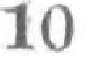10
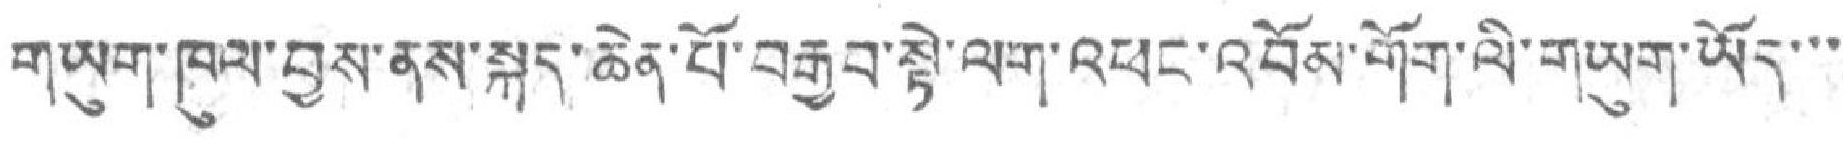གཡུག་ཁུལ་བྱས་ནས་སྐད་ཆེན་པོ་བརྒྱབ་སྟེ་ལག་འཕང་འབོམ་གོག་ལི་གཡུག་ཡོད་་་
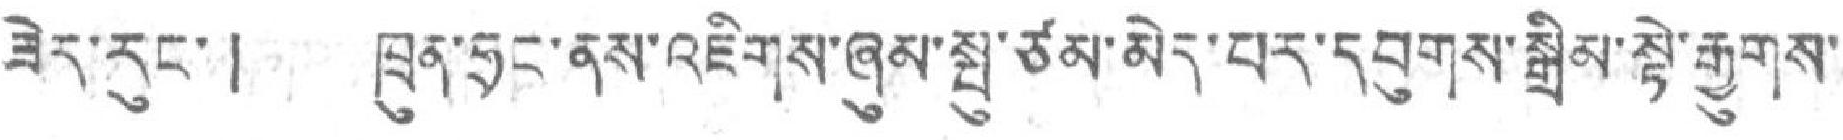ཟེར་རུང་། ཁྲུན་ཧྲང་ནས་འཇིགས་ཞུམ་སྤུ་ཙམ་མེད་པར་དབུགས་སྒྲིམ་སྟེ་རྒྱུགས་
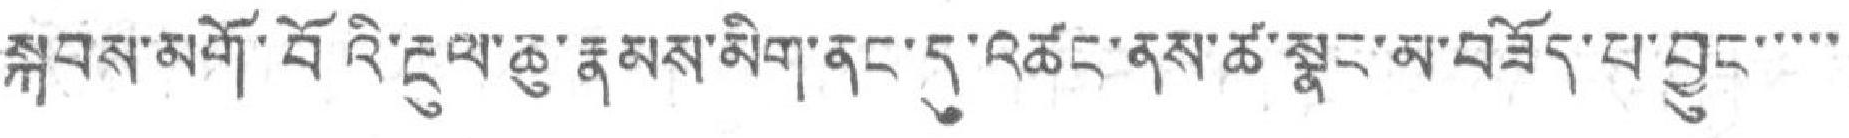སྐབས་མགོ་བོའི་རྔུལ་ཆུ་རྣམས་མིག་ནང་དུ་འཚང་ནས་ཚ་སྣང་མ་བཟོད་པ་བྱུང་་་་་
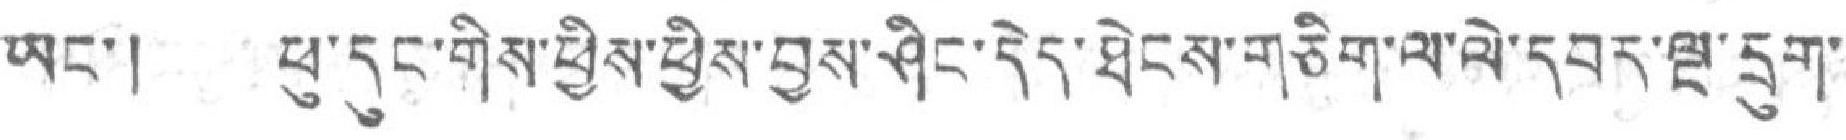ཡང་། ཕུ་དུང་གིས་ཕྱིས་ཕྱིས་བྱས་ཤིང་དེད་ཐེངས་གཅིག་ལ་ལེ་དབར་ལྔ་དྲུག་
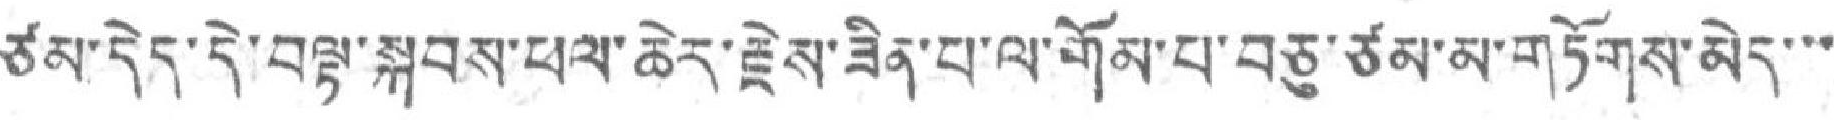ཙམ་དེད་དེ་བལྟ་སྐབས་ཕལ་ཆེར་རྗེས་ཟིན་པ་ལ་གོམ་པ་བཅུ་ཙམ་མ་གཏོགས་མེད་་་
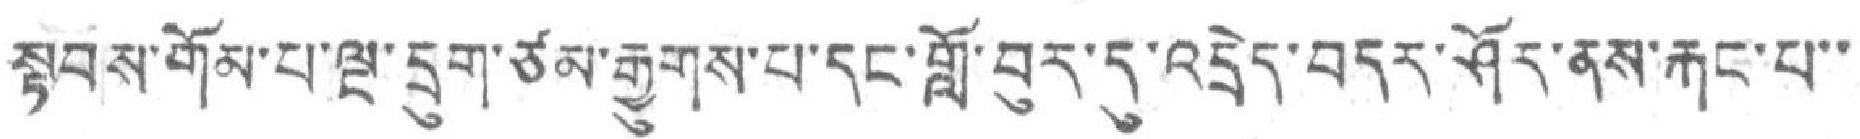སྟབས་གོམ་པ་ལྔ་དྲུག་ཙམ་རྒྱུགས་པ་དང་གློ་བུར་དུ་འདྲེད་བདར་ཤོར་ནས་རྐང་པ་་
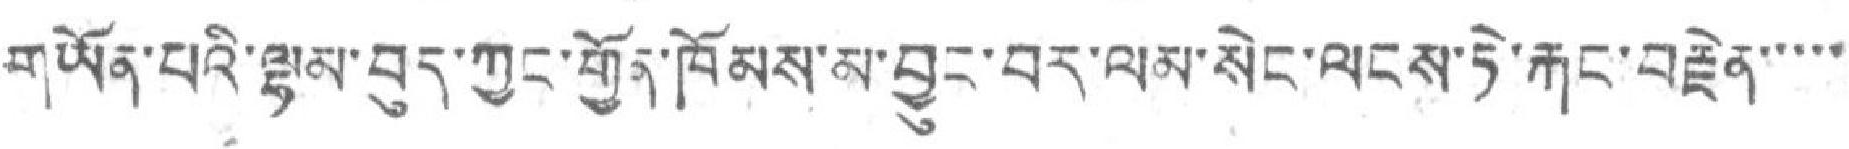གཡོན་པའི་ལྷམ་བུད་ཀྱང་གྱོན་ཁོམས་མ་བྱུང་བར་ལམ་སེང་ལངས་ཏེ་རྐང་བརྗེན་་་་་
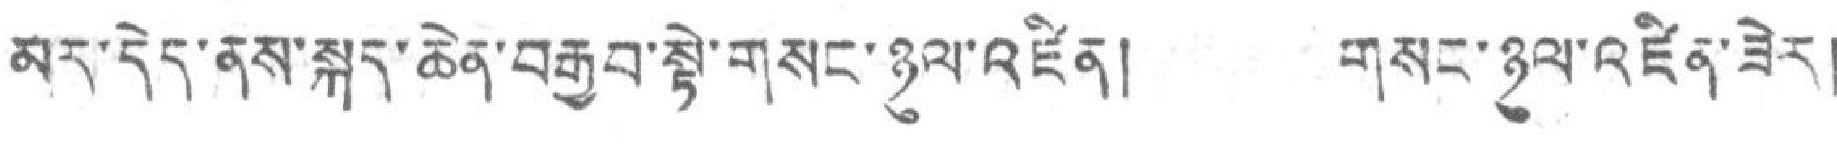མར་དེད་ནས་སྐད་ཆེན་བརྒྱབ་སྟེ་གསང་ཉུལ་འཛིན། གསང་ཉུལ་འཛིན་ཟེར།
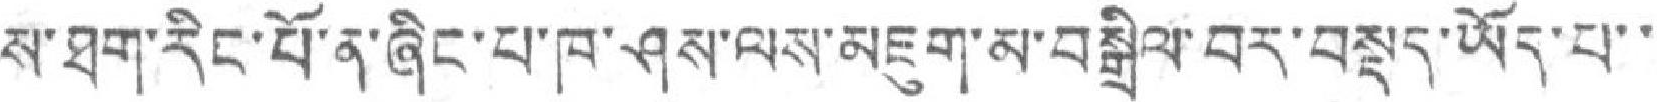ས་ཐག་རིང་པོ་ན་ཞིང་པ་ཁ་ཤས་ལས་མཇུག་མ་བསྒྲིལ་བར་བསྡད་ཡོད་པ་་
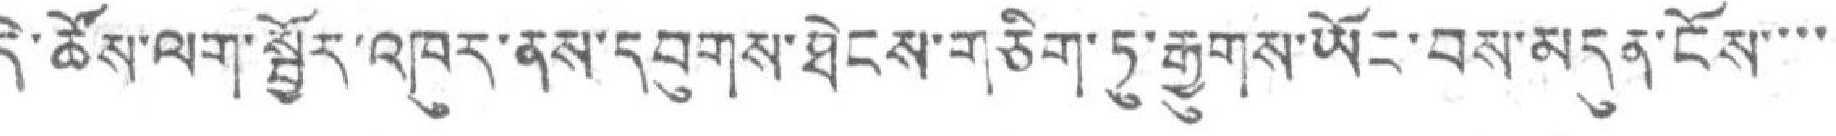དེ་ཚོས་ལག་སྦྱོར་འཁུར་ནས་དབུགས་ཐེངས་གཅིག་ཏུ་རྒྱུགས་ཡོང་བྱས་མདུན་ངོས་་་་
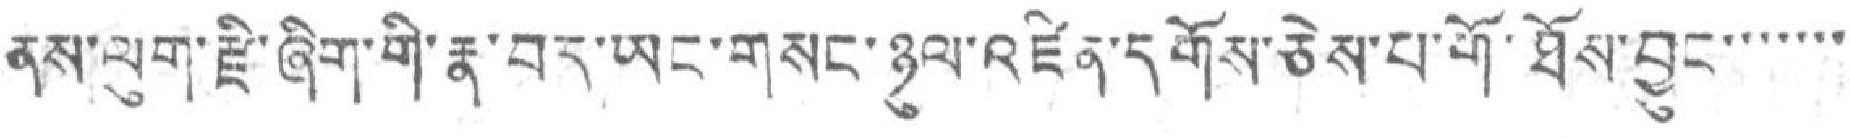ནས་ལུག་རྫི་ཞིག་གི་རྣ་བར་ཡང་གསང་ཉུལ་འཛིན་དགོས་ཅེས་པ་གོ་ཐོས་བྱུང་་་་་་་
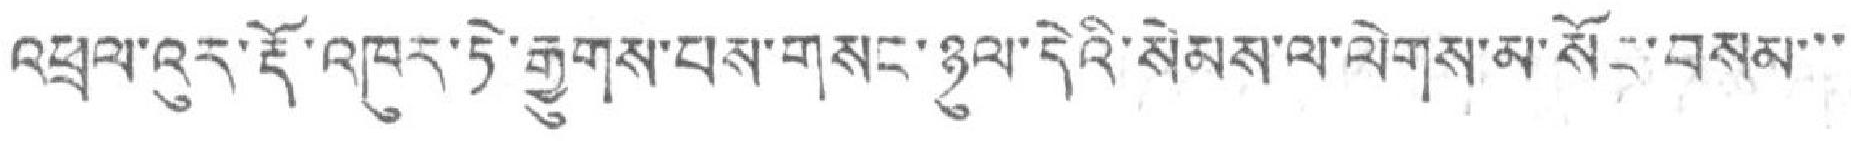འཕྲལ་འུར་རྡོ་འཁུད་ཏེ་རྒྱུགས་པས་གསང་ཉུལ་དེའི་སེམས་ལ་ལེགས་མ་སོང་བསམ་་་
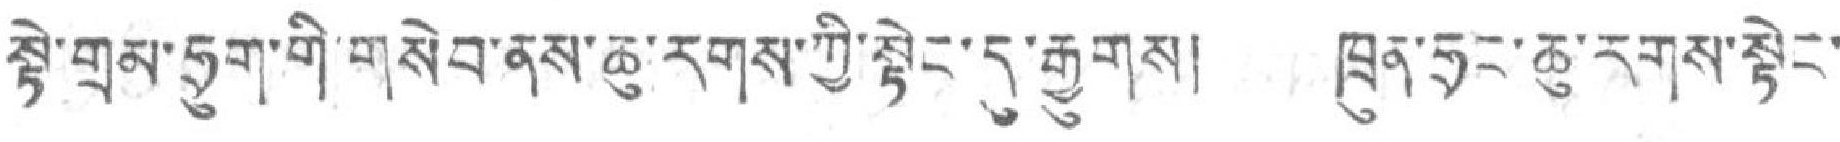སྟེ་གྲམ་ཧྲུག་གི་གསེབ་ནས་ཆུ་རགས་ཀྱི་སྟེང་དུ་རྒྱུགས། ཁྲུན་ཧྲང་ཆུ་རགས་སྟེང་
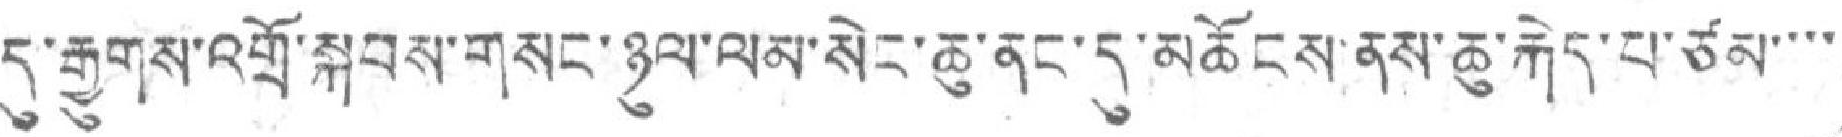དུ་རྒྱུགས་འགྲོ་སྐབས་གསང་ཉུལ་ལམ་སེང་ཆུ་ནང་དུ་མཆོངས་ནས་ཆུ་རྐེད་པ་ཙམ་་་་
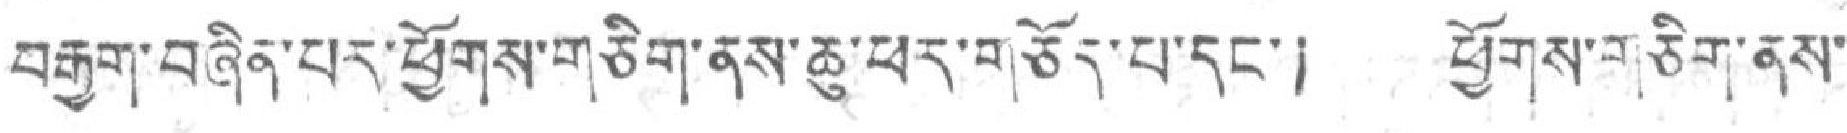བརྒྱག་བཞིན་པར་ཕྱོགས་གཅིག་ནས་ཆུ་ཕར་གཅོད་པ་དང་། ཕྱོགས་གཅིག་ནས་
